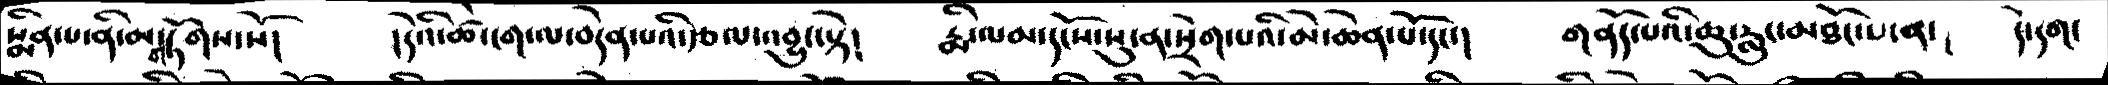སྨིན་པ་ནི་གཏོགས་སོ།     །དེའི་ཚེ་ངག་ལ་བདེན་པའི་རྩལ་འབྱུང་སྟེ།     རྨི་ལམ་དངོས་སུ་ན་སྲེག་པའི་མེ་ཆེན་པོ་དང་།     གནོད་པའི་ཆུ་རླུང་མཐོང་པ་ན་།    དེ་དག་
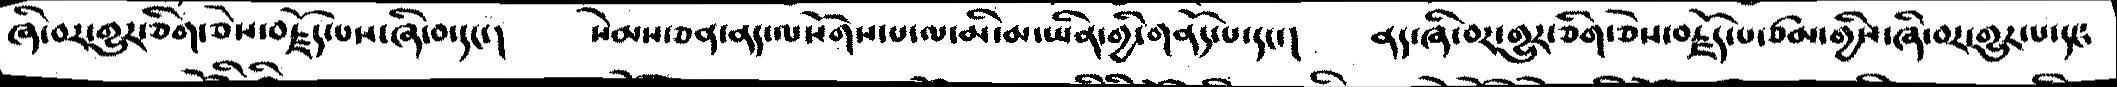ཞི་བར་གྱུར་ཅིག་ཅེས་བརྫོད་པས་ཞི་བ་དང་།     སེམས་ཅན་ནད་ལསོགས་པ་ལ་མི་མ་ཡིན་གྱི་གནོད་པ་དང་།    ནད་ཞི་བར་གྱུར་ཅིག་ཅེས་བརྗོད་པ་ཙམ་གྱིས་ཞི་བར་གྱུར་པ་དང༴
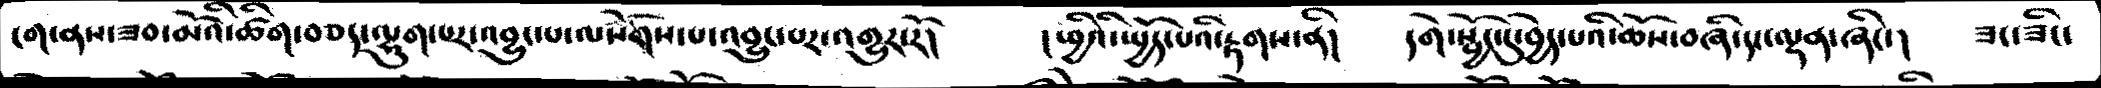ངག་ནས་ཟབ་མོའི་ཚིག་བཅད་ལྷུག་པར་འབྱུང་པ་ལསོགས་པ་འབྱུང་པར་འགྱུར་རོ།    །ཕྱིའི་སྤྱོད་པའི་རྟགས་ནི།    དགེ་སྦྱོང་དུ་བྱེད་པའི་ཆོས་བཞི་དང་ལྡན་ཞིང་།    ཟང་ཟིང་
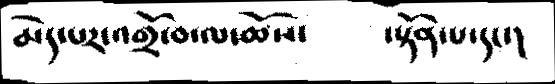མེད་པར་འགྲོ་བ་ལ་ཆོས་       ་སྟོན་པ་དང་།
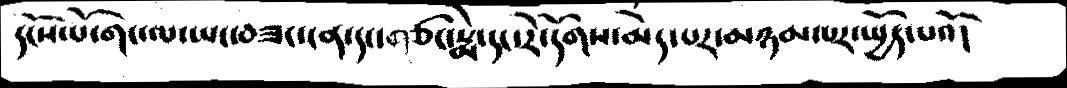དངོས་པོ་གང་ལ་ཡང་བཟང་ངན་དང་གཙང་སྨེ་དང་རེ་དོགས་མེད་པར་མཉམ་པར་སྤྱོད་པའོ།
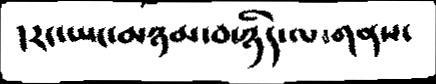།རང་ཡང་མཉམ་བ་ཉིད་ལ་གནས་
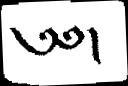༄༅།
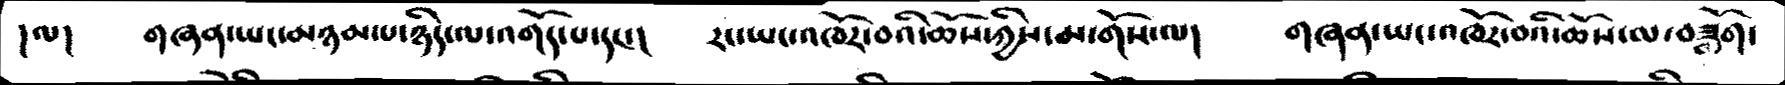།ལ།   གཞན་ཡང་མཉམ་པ་ཉིད་ལ་འགོད་པ་དང་།    རང་ཡང་འཁོར་བའི་ཆོས་ཀྱིས་མ་གོས་ལ།     གཞན་ཡང་འཁོར་བའི་ཆོས་ལ་བཟློག་
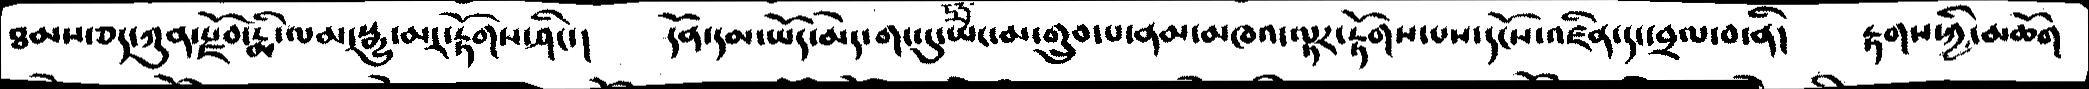ཐམས་ཅད་ཀུན་རྫོབ་རྨི་ལམ་སྒྱུ་མར་རྟོགས་ཤིང་།    དོན་དམ་ཡོད་མེད་གང་དུ་ཡང་མ་གྲུབ་པ་ནམ་མཁའ་ལྟར་རྟོགས་པས་དངོས་འཛིན་དང་བྲལ་བ་ནི།   རྟགས་ཀྱི་མཆོག
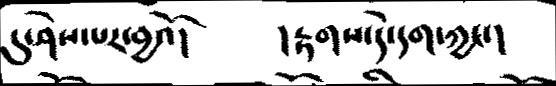དུ་ཤེས་པར་བྱའོ།    །རྟགས་དེ་དག་ཀྱང་།
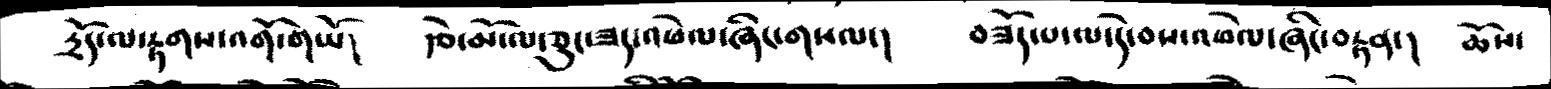དྲོད་ལ་རྟགས་འགོ་གཡོ།   རྩེ་མོ་ལ་ཅུང་ཟད་འཕེལ་ཞིང་གསལ་།    བཟོད་པ་དེ་བས་འཕེལ་ཞིང་བརྟན་།    ཆོས་
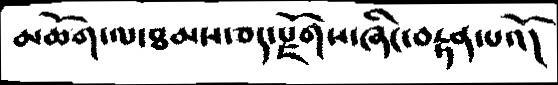མཆོག་ལ་ཐམས་ཅད་རྫོགས་ཞིང་བརྟན་པའོ།
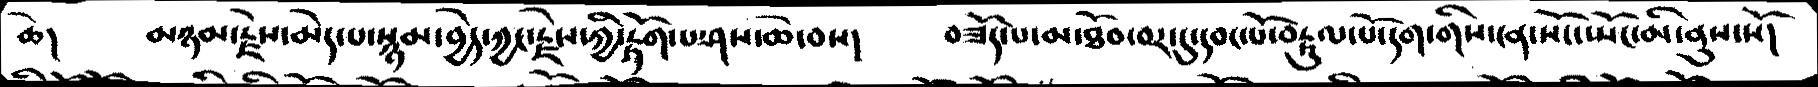ཆེ།   མཉམ་རྗེས་མེད་པ་སྙམ་བྱེད་ཀྱང་རྗེས་ཀྱི་རྟོག་པ་ཤས་ཆེ་བས།   བཟོད་པ་མ་ཐོབ་བར་དུ་དབང་པོ་བརྟུལ་པོ་དག་གིས་ངན་སོང་སྤོང་མི་ནུས་སོ།
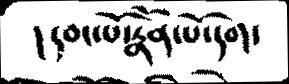།དབང་པོ་རྣོན་པོ་དག་
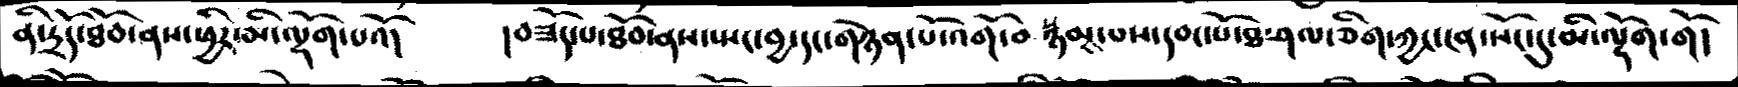ནི་དྲོད་ཐོབ་ནས་ཕྱིར་མི་ལྡོག་པའོ།   །བཟོད་པ་ཐོབ་ནས་སྤང་བྱ་དང་གཉེན་པོ་འགོ་བསྙམས་པས་དབང་པོ་ཐ་ཤལ་ཅིག་ཀྱང་ངན་སོང་དུ་མི་ལྡོག་གོ།
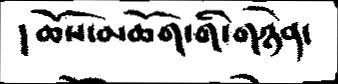།ཆོས་མཆོག་གི་གཉེན་
